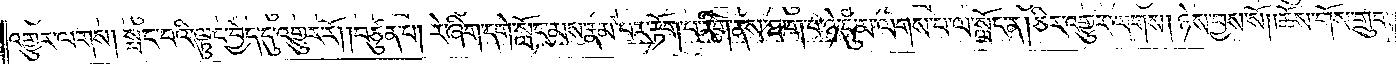འགྱུར་ལགས། སྤང་བའི་ལྟུང་བྱེད་དུ་འགྱུར་རོ། །བཙུན་པ། རེ་ཞིག་དགེ་སློང་མས་རྣམ་པར་རྟོག་པ་རིག་ནས་ཐ་ག་པ་ཉེ་དུ་མ་ལགས་པ་ལ་སློང་ན། ཅིར་འགྱུར་ལགས། ཉེས་བྱས་སོ། །ཆོས་གོས་གྲུབ་
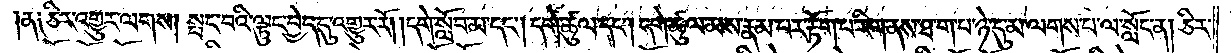།ན༑ ཅིར་འགྱུར་ལགས། སྤང་བའི་ལྟུང་བྱེད་དུ་འགྱུར་རོ། །དགེ་སློབ་མ་དང༌། དགེ་ཚུལ་དང༌། དགེ་ཚུལ་མས་རྣམ་པར་རྟོག་པ་རིག་ནས་ཐ་ག་པ་ཉེ་དུ་མ་ལགས་པ་ལ་སློང་ན། ཅིར་
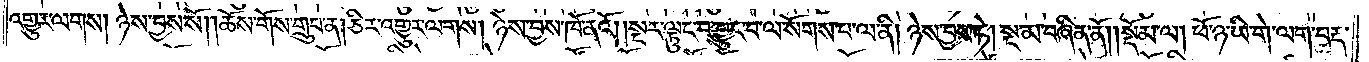འགྱུར་ལགས། ཉེས་བྱས་སོ། །ཆོས་གོས་གྲུབ་ན། ཅིར་འགྱུར་ལགས། ཉེས་བྱས་ཁོ་ནའོ། །སྔར་ལྟུང་བ་བྱུང་བ་ལ་སོགས་པ་ལ་ནི། ཉེས་བྱས་ཏེ། སྔ་མ་བཞིན་ནོ།    །སྡོམ་ལ། ཕོ་ཉ་ཡི་གེ་ལག་བརྡ་
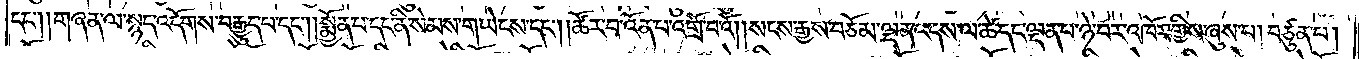དང༌། །གཞན་ལ་སྙད་འདོགས་བརྒྱུད་པ་དང༌། །སྨྱོན་པ་དང་ནི་སེམས་གཡེངས་དང༌། །ཚོར་བ་འོན་པ་འགྲོ་བའོ། །སངས་རྒྱས་བཅོམ་ལྡན་འདས་ལ་ཚེ་དང་ལྡན་པ་ཉེ་བར་འཁོར་གྱིས་ཞུས་པ། བཙུན་པ།
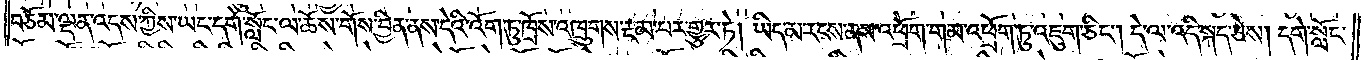བཅོམ་ལྡན་འདས་ཀྱིས་ཡང་དགེ་སློང་ལ་ཆོས་གོས་བྱིན་ནས་དེའི་འོག་ཏུ་ཁྲོས་འཁྲུགས་རྔམ་པར་གྱུར་ཏེ། ཡིད་མ་རངས་ནས་འཕྲོག་གམ་འཕྲོག་ཏུ་འཇུག་ཅིང༌། དེ་ལ་འདི་སྐད་ཅེས། དགེ་སློང་
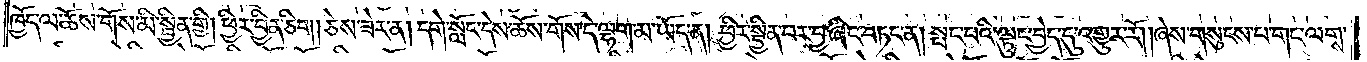ཁྱོད་ལ་ཆོས་གོས་མི་སྦྱིན་གྱི། ཕྱིར་བྱིན་ཅིག །ཅེས་ཟེར་ན། དགེ་སློང་དེས་ཆོས་གོས་དེ་ལྷག་མ་ཡོད་ན། ཕྱིར་སྦྱིན་པར་བྱ་ཞིང་བཏང་ན། སྤང་བའི་ལྟུང་བྱེད་དུ་འགྱུར་རོ། །ཞེས་གསུངས་པ་གང་ལགས་
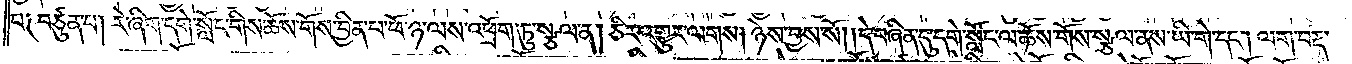པ༑ བཙུན་པ། རེ་ཞིག་དགེ་སློང་གིས་ཆོས་གོས་བྱིན་པ་ཕོ་ཉ་ལས་འཕྲོག་ཏུ་སྩལ་ན། ཅིར་འགྱུར་ལགས། ཉེས་བྱས་སོ། །དེ་བཞིན་དུ་དགེ་སློང་ལ་ཆོས་གོས་སྩལ་ནས་ཡི་གེ་དང༌། ལག་བརྡ་
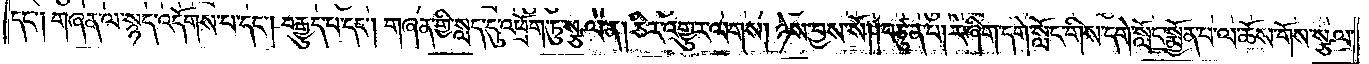དང༌། གཞན་ལ་སྙད་འདོགས་པ་དང༌། བརྒྱུད་པ་དང༌། གཞན་གྱི་སླད་དུ་འཕྲོག་ཏུ་སྩལ་ན། ཅིར་འགྱུར་ལགས། ཉེས་བྱས་སོ། །བཙུན་པ། རེ་ཞིག་དགེ་སློང་གིས་དགེ་སློང་སྨྱོན་པ་ལ་ཆོས་གོས་སྩལ་
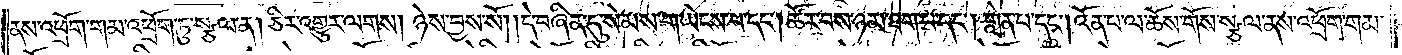ནས་འཕྲོག་གམ་འཕྲོག་ཏུ་སྩལ་ན། ཅིར་འགྱུར་ལགས། ཉེས་བྱས་སོ། །དེ་བཞིན་དུ་སེམས་གཡེངས་པ་དང༌། ཚོར་བས་ཉམ་ཐག་པ་དང༌། གླེན་པ་དང༌། འོན་པ་ལ་ཆོས་གོས་སྩལ་ནས་འཕྲོག་གམ་
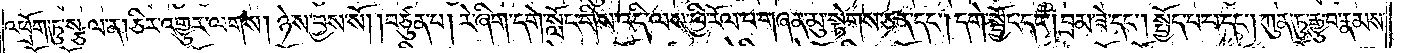འཕྲོག་ཏུ་སྩལ་ན། ཅིར་འགྱུར་ལགས། ཉེས་བྱས་སོ། །བཙུན་པ། རེ་ཞིག་དགེ་སློང་གིས་འདི་ལས་ཕྱི་རོལ་པ་གཞན་མུ་སྟེགས་ཅན་དང༌། དགེ་སྦྱོང་དང༌། བྲམ་ཟེ་དང༌། སྤྱོད་པ་པ་དང༌། ཀུན་ཏུ་རྒྱུ་བ་རྣམས་
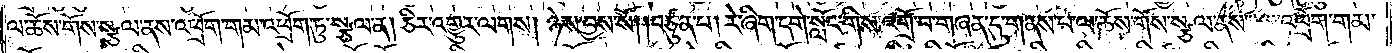ལ་ཆོས་གོས་སྩལ་ནས་འཕྲོག་གམ་འཕྲོག་ཏུ་སྩལ་ན། ཅིར་འགྱུར་ལགས། ཉེས་བྱས་སོ། །བཙུན་པ། རེ་ཞིག་དགེ་སློང་གིས་འགྲོ་བ་གཞན་དུ་གནས་པ་ལ་ཆོས་གོས་སྩལ་ནས་འཕྲོག་གམ་
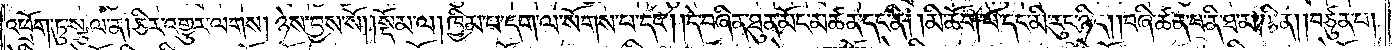འཕྲོག་ཏུ་སྩལ་ན། ཅིར་འགྱུར་ལགས། ཉེས་བྱས་སོ། །སྡོམ་ལ། ཁྱིམ་པ་དག་ལ་སོགས་པ་དང༌། །དེ་བཞིན་ཐུན་མོང་མཚན་དང་ནི། །མི་ཆོག་པ་དང་མི་རུང་ཉིད། །བཞི་ཚན་པ་ནི་ཐ་མ་ཡིན། །བཙུན་པ།
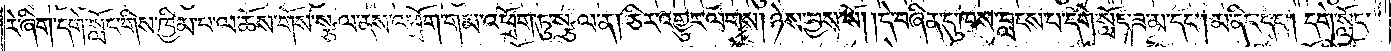རེ་ཞིག་དགེ་སློང་གིས་ཁྱིམ་པ་ལ་ཆོས་གོས་སྩལ་ནས་འཕྲོག་གམ་འཕྲོག་ཏུ་སྩལ་ན། ཅིར་འགྱུར་ལགས། ཉེས་བྱས་སོ། །དེ་བཞིན་དུ་ཁས་བླངས་པ་དགེ་སློང་ཟ་མ་དང༌། མ་ནིང་དང༌། དགེ་སློང་
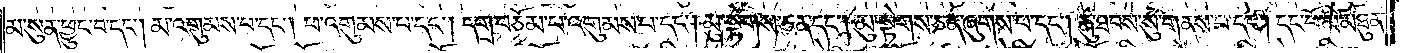མ་སུན་ཕྱུང་བ་དང༌། མ་འགུམས་པ་དང༌། ཕ་འགུམས་པ་དང༌། དགྲ་བཅོམ་པ་འགུམས་པ་དང༌། མུ་སྟེགས་ཅན་དང༌། མུ་སྟེགས་ཅན་ཞུགས་པ་དང༌། རྐུ་ཐབས་སུ་གནས་པ་དང༌། དང་པོ་མི་མཐུན་
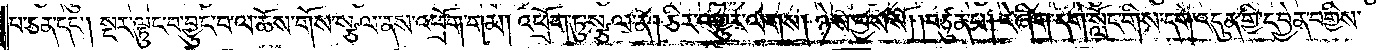པ་ཅན་དང༌། སྔར་ལྟུང་བ་བྱུང་བ་ལ་ཆོས་གོས་སྩལ་ནས་འཕྲོག་གམ། འཕྲོག་ཏུ་སྩལ་ན། ཅིར་འགྱུར་ལགས། ཉེས་བྱས་སོ། །བཙུན་པ། རེ་ཞིག་དགེ་སློང་གིས་དགེ་འདུན་གྱི་དབྱེན་བགྱིས་
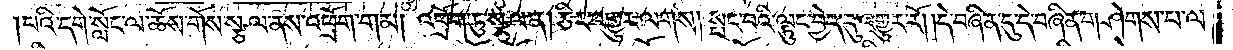།པའི་དགེ་སློང་ལ་ཆོས་གོས་སྩལ་ནས་འཕྲོག་གམ། འཕྲོག་ཏུ་སྩལ་ན། ཅིར་འགྱུར་ལགས། སྤང་བའི་ལྟུང་བྱེད་དུ་འགྱུར་རོ། །དེ་བཞིན་དུ་དེ་བཞིན་གཤེགས་པ་ལ་
